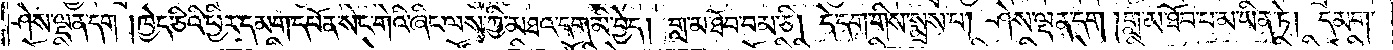ཤེས་ལྡན་དག །ཁྱེད་ཅིའི་ཕྱིར་དམག་དཔོན་སེང་གེའི་ཞིང་ལས་ཀྱི་མཐའ་དག་མི་བྱེད། གླ་མ་ཐོབ་བམ་ཅི། དེ་དག་གིས་སྨྲས་པ། ཤེས་ལྡན་དག །གླ་མ་ཐོབ་པ་མ་ཡིན་ཏེ། དམག་
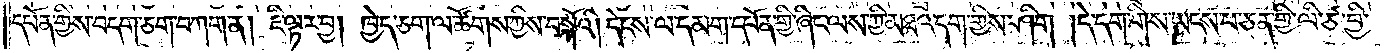དཔོན་གྱིས་བདག་ཅག་བཀག་ན། ཇི་ལྟར་བྱ། ཁྱེད་ཅག་ལ་ཚོགས་ཀྱིས་བསྐོའི། དེངས་ལ་དམག་དཔོན་གྱི་ཞིང་ལས་ཀྱི་མཐའ་དག་གྱིས་ཤིག །དེ་དག་གིས་ཡངས་པ་ཅན་གྱི་ལི་ཙ་བྱི་
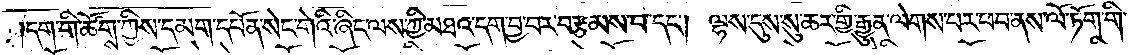དག་གི་ཚོགས་ཀྱིས་དམག་དཔོན་སེང་གེའི་ཞིང་ལས་ཀྱི་མཐའ་དག་བྱ་བར་བརྩམས་པ་དང༌། ལྷས་དུས་སུ་ཆར་གྱི་རྒྱུན་ལེགས་པར་ཕབ་ནས་ལོ་ཏོག་གི་
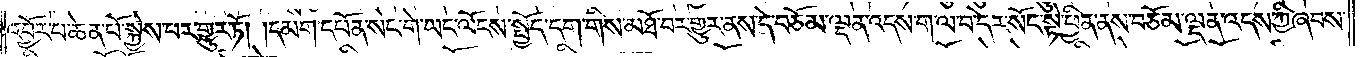འབྱོར་པ་ཆེན་པོ་སྐྱེས་པར་གྱུར་ཏོ། །དམག་དཔོན་སེང་གེ་ཡང་ལོངས་སྤྱོད་དག་གིས་མཐོ་བར་གྱུར་ནས་དེ་བཅོམ་ལྡན་འདས་ག་ལ་བ་དེར་སོང་སྟེ་ཕྱིན་ནས་བཅོམ་ལྡན་འདས་ཀྱི་ཞབས་
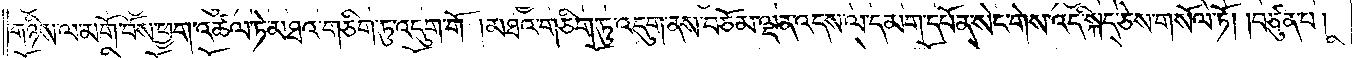གཉིས་ལ་མགོ་བོས་ཕྱག་འཚལ་ཏེ་མཐའ་གཅིག་ཏུ་འདུག་གོ །མཐའ་གཅིག་ཏུ་འདུག་ནས་བཅོམ་ལྡན་འདས་ལ་དམག་དཔོན་སེང་གེས་འདི་སྐད་ཅེས་གསོལ་ཏོ། །བཙུན་པ།
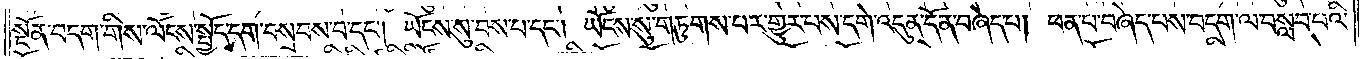སྔོན་བདག་གིས་ལོངས་སྤྱོད་དག་བསྲབས་པ་དང༌། ཡོངས་སུ་བས་པ་དང༌། ཡོངས་སུ་གཏུགས་པར་གྱུར་པས་དགེ་འདུན་དོན་བཞེད་པ། ཕན་པ་བཞེད་པས་བདག་ལ་བསླབ་པའི་
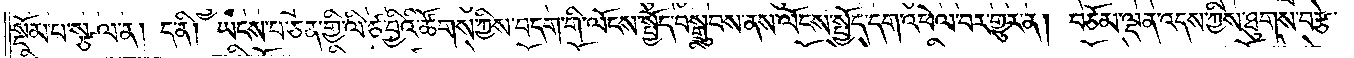སྡོམ་པ་སྩལ་ན། ད་ནི། ཡངས་པ་ཅན་གྱི་ལི་ཙ་བྱིའི་ཚོགས་ཀྱིས་བདག་གི་ལོངས་སྤྱོད་བསྒྲུབས་ནས་ལོངས་སྤྱོད་དག་འཕེལ་བར་གྱུར་ན། བཅོམ་ལྡན་འདས་ཀྱིས་ཐུགས་བརྩེ་
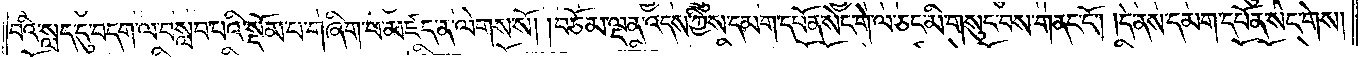བའི་སླད་དུ་བདག་ལ་བསླབ་པའི་སྡོམ་པ་གཞིག་པ་མཛད་ན་ལེགས་སོ། །བཅོམ་ལྡན་འདས་ཀྱིས་དམག་དཔོན་སེང་གེ་ལ་ཅང་མི་གསུང་བས་གནང་ངོ༌། །དེ་ནས་དམག་དཔོན་སེང་གེས།
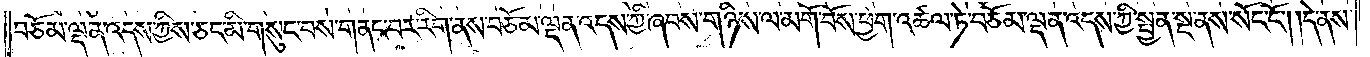བཅོམ་ལྡན་འདས་ཀྱིས་ཅང་མི་གསུང་བས་གནང་བར་རིག་ནས་བཅོམ་ལྡན་འདས་ཀྱི་ཞབས་གཉིས་ལ་མགོ་བོས་ཕྱག་འཚལ་ཏེ་བཅོམ་ལྡན་འདས་ཀྱི་སྤྱན་སྔ་ནས་སོང་ངོ༌། །དེ་ནས་
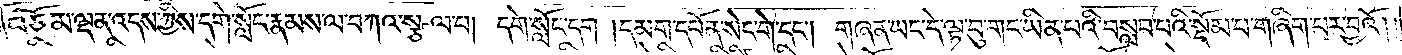བཅོམ་ལྡན་འདས་ཀྱིས་དགེ་སློང་རྣམས་ལ་བཀའ་སྩལ་པ། དགེ་སློང་དག །དམག་དཔོན་སེང་གེ་དང༌། གཞན་ཡང་དེ་ལྟ་བུ་གང་ཡིན་པའི་བསླབ་པའི་སྡོམ་པ་གཞིག་པར་བྱའོ། །
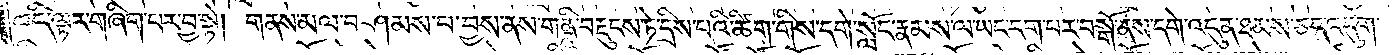འདི་ལྟར་གཞིག་པར་བྱ་སྟེ། གནས་མལ་བཤམས་པ་བྱས་ནས་གནྜཱི་བརྡུངས་ཏེ་དྲིས་པའི་ཚིག་གིས་དགེ་སློང་རྣམས་ལ་ཡང་དག་པར་བསྒོ་ནས་དགེ་འདུན་ཐམས་ཅད་འདུག་
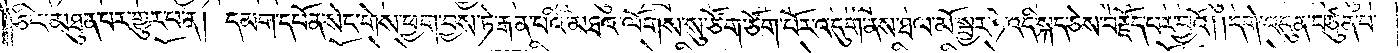ཅིང་མཐུན་པར་གྱུར་པ་ན། དམག་དཔོན་སེང་གེས་ཕྱག་བྱས་ཏེ་རྒན་པའི་མཐའ་ལོགས་སུ་ཙོག་ཙོག་པོར་འདུག་ནས་ཐལ་མོ་སྦྱར་ཏེ་འདི་སྐད་ཅེས་བརྗོད་པར་བྱའོ། །དགེ་འདུན་བཙུན་པ་
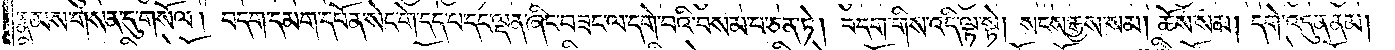རྣམས་གསན་དུ་གསོལ ། བདག་དམག་དཔོན་སེང་གེ་དད་པ་དང་ལྡན་ཞིང་བཟང་ལ་དགེ་བའི་བསམ་པ་ཅན་ཏེ། བདག་གིས་འདི་ལྟ་སྟེ། སངས་རྒྱས་སམ། ཆོས་སམ། དགེ་འདུན་ནམ།
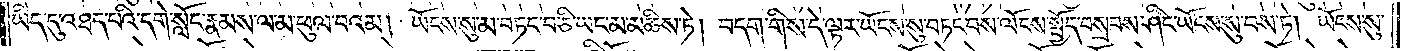ཡིད་དུ་འཐད་པའི་དགེ་སློང་རྣམས་ལ་མ་ཕུལ་བའམ། ཡོངས་སུ་མ་བཏང་བ་ཅི་ཡང་མ་མཆིས་ཏེ། བདག་གིས་དེ་ལྟར་ཡོངས་སུ་བཏང་བས་ལོངས་སྤྱོད་བསྲབས་ཤིང་ཡོངས་སུ་བས་ཏེ། ཡོངས་སུ་
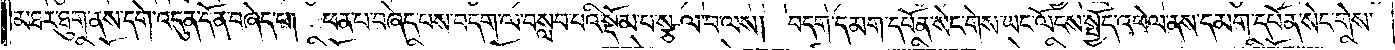མཐར་ཐུག་ནས་དགེ་འདུན་དོན་བཞེད་པ། ཕན་པ་བཞེད་པས་བདག་ལ་བསླབ་པའི་སྡོམ་པ་སྩལ་བ་ལས། བདག་དམག་དཔོན་སེང་གེས་ཡང་ལོངས་སྤྱོད་འཕེལ་ནས་དམག་དཔོན་སེང་གེས་
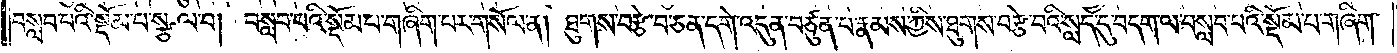བསླབ་པའི་སྡོམ་པ་སྩལ་པ། བསླབ་པའི་སྡོམ་པ་གཞིག་པར་གསོལ་ན། ཐུགས་བརྩེ་བ་ཅན་དགེ་འདུན་བཙུན་པ་རྣམས་ཀྱིས་ཐུགས་བརྩེ་བའི་སླད་དུ་བདག་ལ་བསླབ་པའི་སྡོམ་པ་གཞིག་
